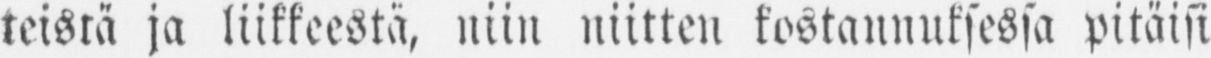teistä ja liikkeestä, niin niitten kostannuksessa pitäisi
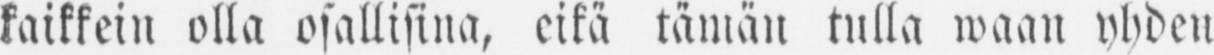kaikkein olla osallisina, eikä tämän tulla waan yhden
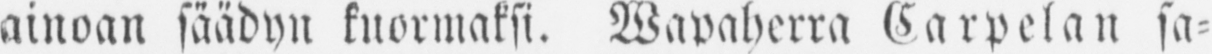ainoan säädyn kuormaksi. Wapaherra Carpelan sa-
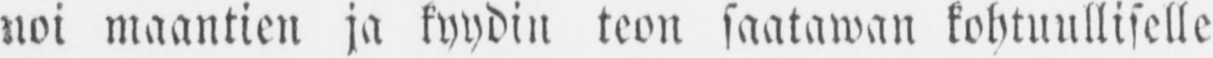noi maantien ja kyydin teon saatawan kohtuulliselle
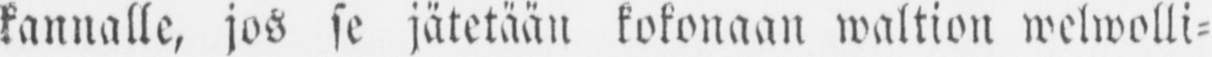kannalle, jos se jätetään kokonaan waltion welwolli-
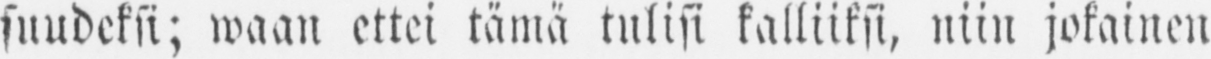suudeksi; waan ettei tämä tulisi kalliiksi, niin jokainen
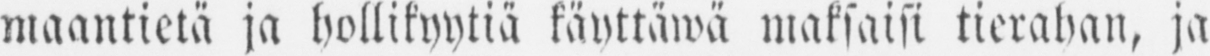maantietä ja hollikyytiä käyttäwä maksaisi tierahan, ja
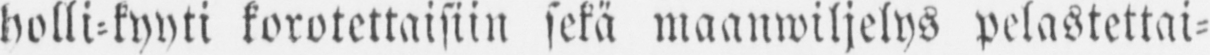holli-kyyti korotettaisiin sekä maanwiljelys pelastettai-
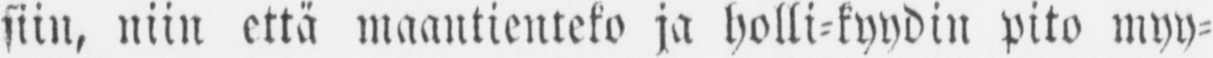siin, niin että maantienteko ja holli-kyydin pito myy-
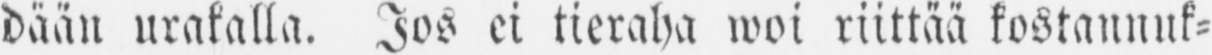dään urakalla. Jos ei tieraha woi riittää kostannuk-
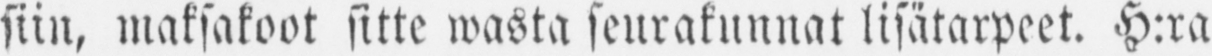siin, maksakoot sitte wasta seurakunnat lisätarpeet. H:ra
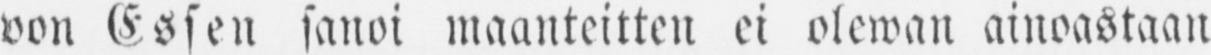von Essen sanoi maanteitten ei olewan ainoastaan
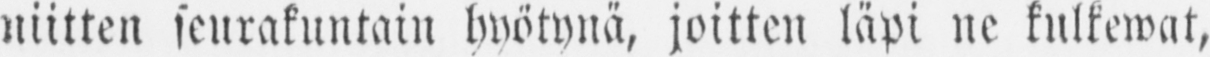niitten seurakuntain hyötynä, joitten läpi ne kulkewat,
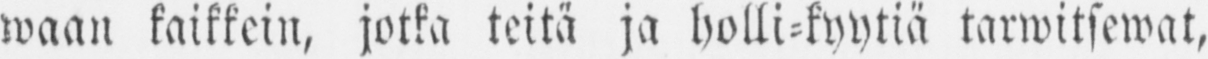waan kaikkein, jotka teitä ja holli-kyytiä tarwitsewat,
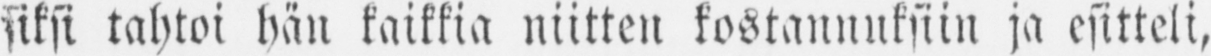siksi tahtoi hän kaikkia niitten kostannuksiin ja esitteli,
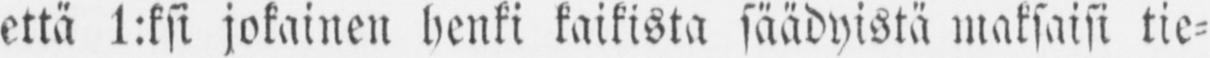että 1:ksi jokainen henki kaikista säädyistä maksaisi tie-
